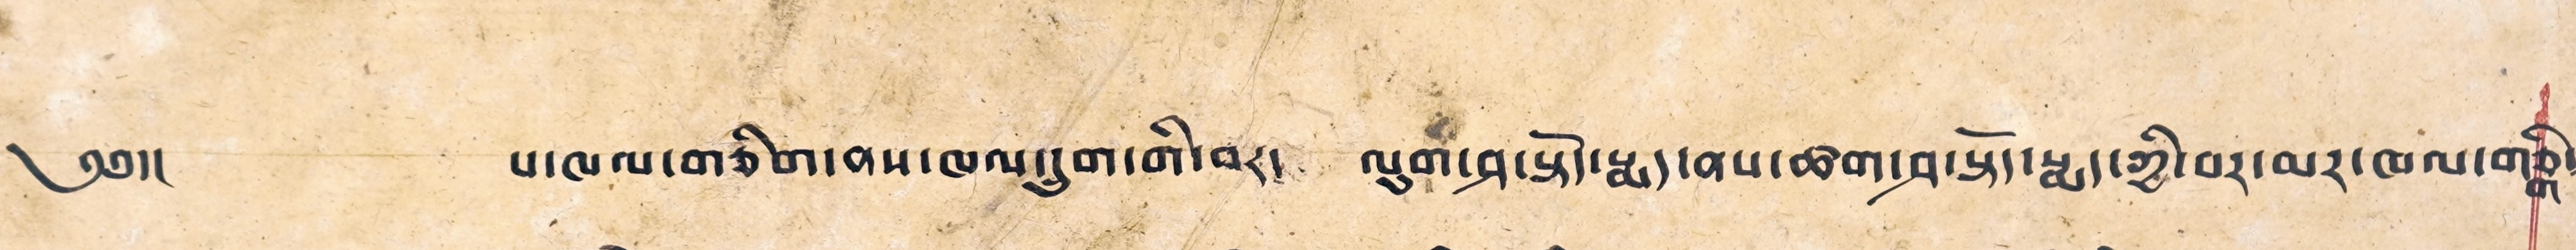༄༅།།  པ་ཁལ་གཅིག་ནས་ཁལ་དྲུག་གི་བར། ལུག་ཤ་སྡོད་སྨད་ནས་ཚག་ཤ་སྟོད་སྨད་ཀྱི་བར་མར་ཁལ་གཅིག༴
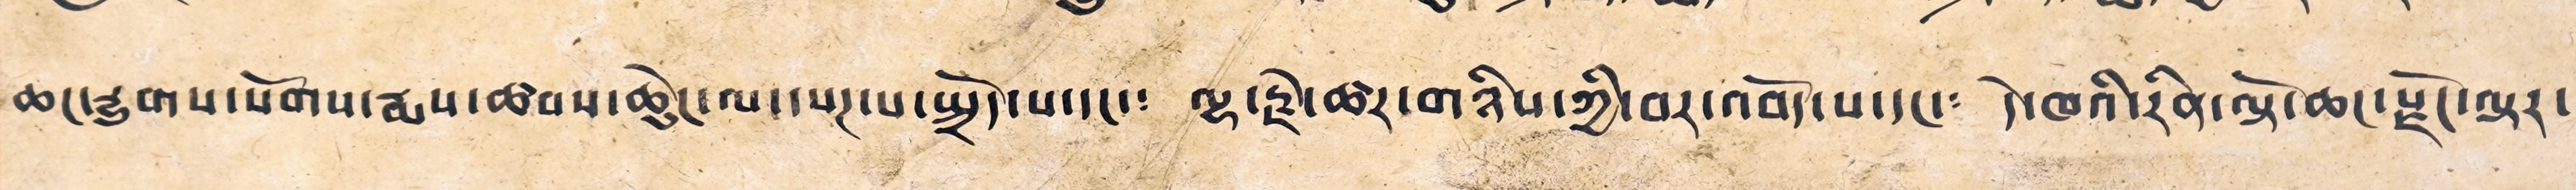ཆང་རྒྱུགས་སོགས་རྨས་ཚབས་ཆེུང་ལ་དཔཊ་པ་སྤྲོད་པ་དང་༴ ལྷ་རྗེ་ཚར་གཉིས་ཀྱི་བར་འབོད་པ་དང་། དེ་ཁའི་རིན་ལྟོ་ཆང་རྫོང་ལྟར་
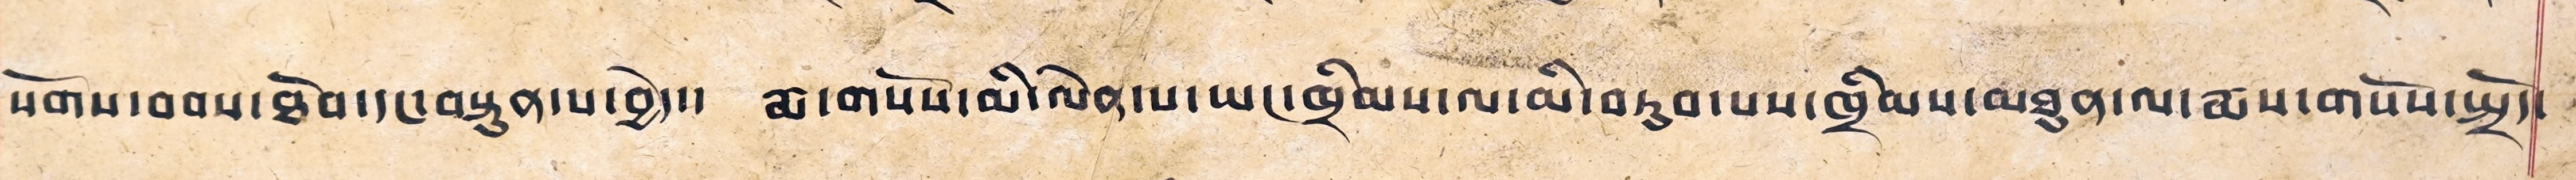སོགས་བབས་ཐོབ་དང་བསྟུན་པ་བྱེད་༴ རྨ་གསོས་མི་ལེན་པ་ཡང་ཁྲིམས་ལ་མི་བཏུབ་པས་ཁྲིམས་མཐུན་ལ་རྨས་གསོས་སྤྲོད་
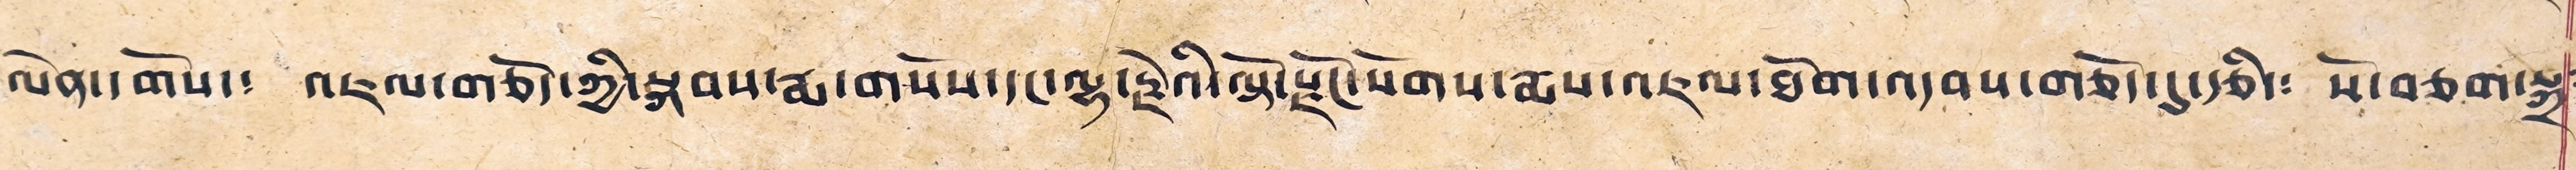ལེན་དགོས་༴ འཇལ་གཅོད་ཀྱི་སྐབས་རྨ་གསོས་དང་ལྷ་རྗེའི་ལྟོ་རྫོང་སོགས་རྨས་འཇལ་ཐོག་འདབས་གཅོད་དུ་རྩི་༴ སོ་བཅག་སྐྲ༴
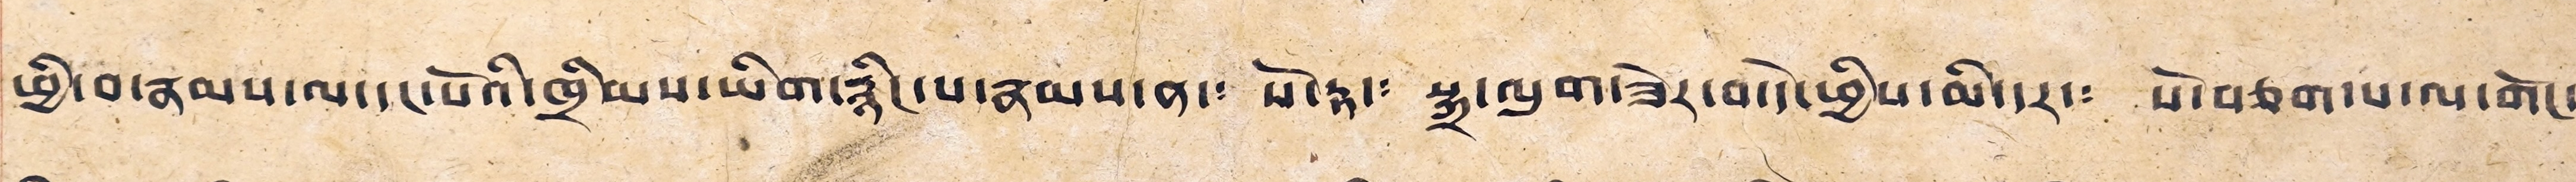ཕྱི་བ་རྣམས་ལ་དང་པོའི་ཁྲིམས་ཡིག་རྙིང་པ་རྣམས་ན་༴ སོ་རྟ་༴ སྐྲ་ལུག་ཟེར་བ་དེ་ཕྱིས་མི་དར་༴ སོ་བཅག་པ་ལ་གོང་
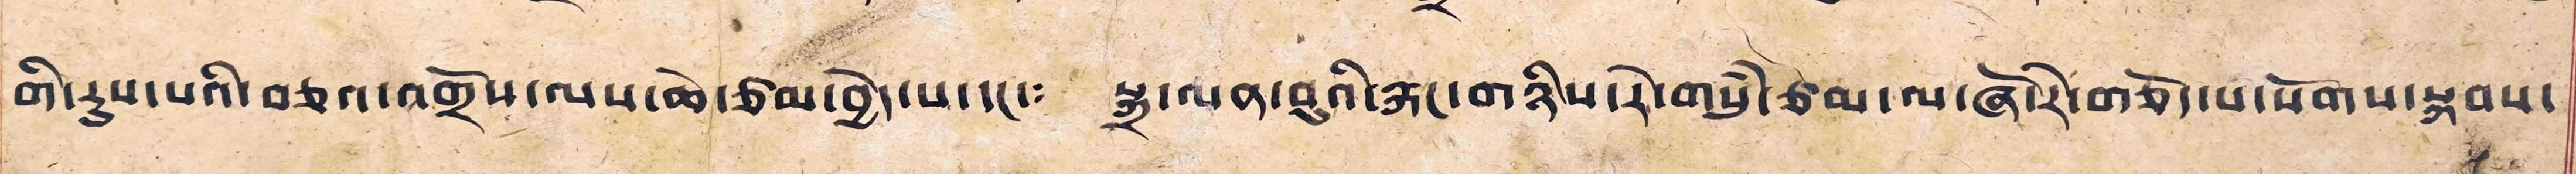གི་རུས་པའི་བཅའ་འགྲོས་ལས་ཆེ་ཙམ་བྱེད་པ་དང་༴ སྐྲ་ལན་བུའི་རྐང་གཉིས་རེ་གསུཾ་ཅམ་ལ་ཞོ་རེ་གཅོད་པ་སོགས་སྐབས་
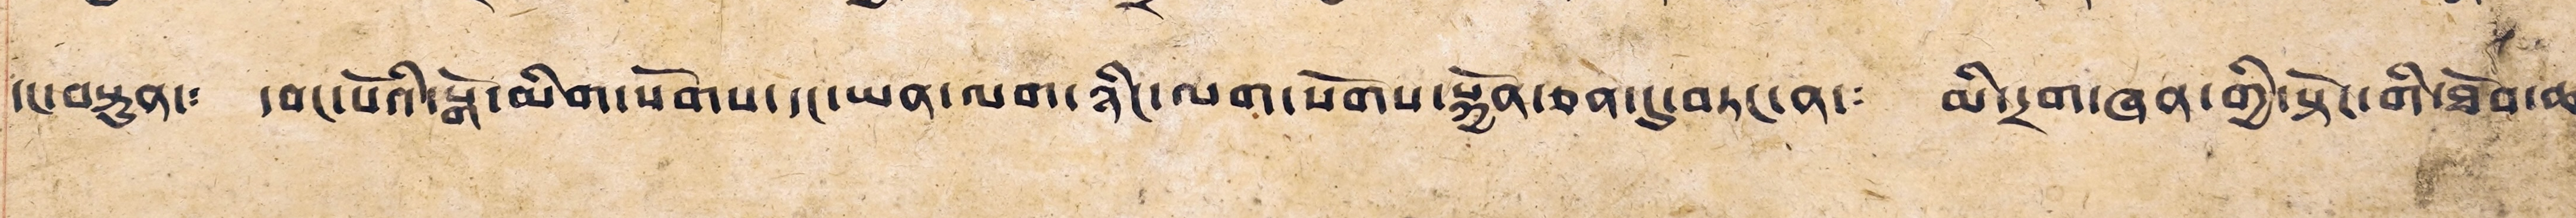དང་བསྟུན་༴ དབང་པོའི་སྒོ་མིག་སོགས་དང་ཡན་ལག་ཉིང་ལག་སོགས་སྐྱོན་ཅན་དུ་བཏང་ན་༴ མི་དྲག་ཞན་གྱི་སྟོང་གི་ཐོབ་ཆ་
